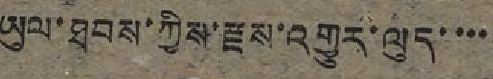ཡུལ་ཐབས་ཀྱིས་རྫས་འགྱུར་ལུད་་་་
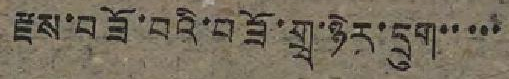རྫས་བཟོ་བའི་བཟོ་གྲྭ་ཉེར་དྲུག་་་་་
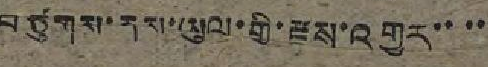བཙུགས་ནས་ཡུལ་གྱི་རྫས་འགྱུར་་་་
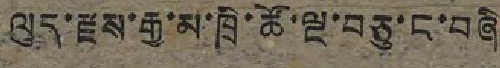ལུད་རྫས་རྒྱ་མ་ཁྲི་ཚོ་ལྔ་བཅུ་ང་བཞི
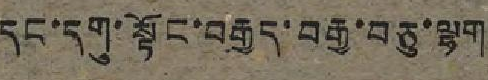དང་དགུ་སྟོང་བརྒྱད་བརྒྱ་བཅུ་ལྷག
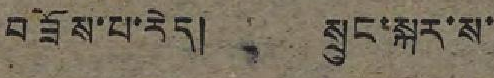བཟོས་པ་རེད། སྲུང་སྐར་ས་
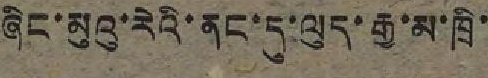ཞིང་མུའུ་རེའི་ནང་དུ་ལུད་རྒྱ་མ་ཁྲི་
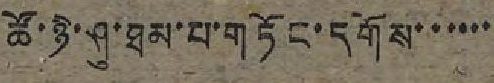ཚོ་ཉི་ཤུ་ཐམ་པ་གཏོང་དགོས་་་་་་
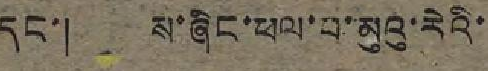དང་། ས་ཞིང་ཕལ་བ་མུའུ་རེའི་
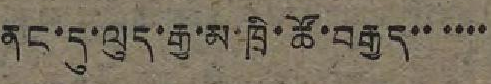ནང་དུ་ལུད་རྒྱ་མ་ཁྲི་ཚོ་བརྒྱད་་་་་་
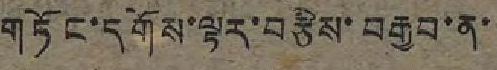གཏོང་དགོས་ལྟར་བརྩིས་བརྒྱབ་ན་
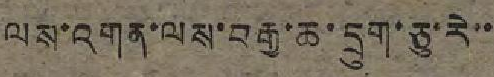ལས་འགན་ལས་བརྒྱ་ཆ་དྲུག་ཅུ་རེ་་
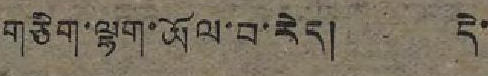གཅིག་ལྷག་ཡོལ་བ་རེད། དེ་
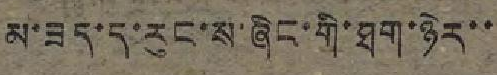མ་ཟད་ད་རུང་ས་ཞིང་གི་ཐག་ཉེར་་
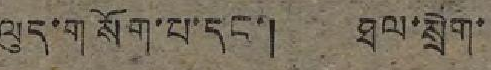ལུད་གསོག་པ་དང་། ཐལ་སྲེག་
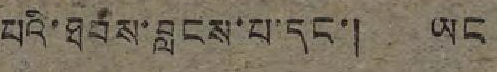པའི་ཐབས་བླངས་པ་དང་། ཡང
